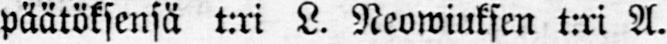päätöksensä t:ri L. Neowiuksen t:ri A.
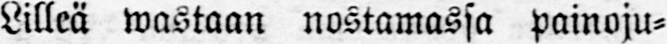Lilleä wastaan nostamassa painoju-
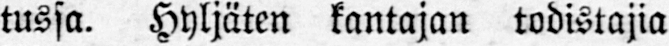tussa. Hyljäten kantajan todistajia
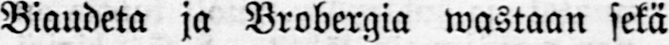Biaudeta ja Brobergia wastaan sekä
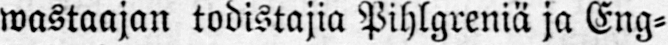wastaajan todistajia Pihlgreniä ja Eng-
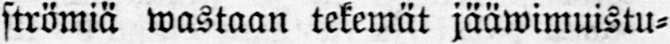strömiä wastaan tekemät jääwimuistu-
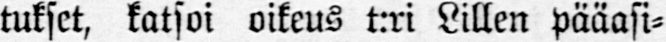tukset, katsoi oikeus t:ri Lillen pääasi-
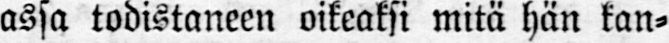assa todistaneen oikeaksi mitä hän kan-
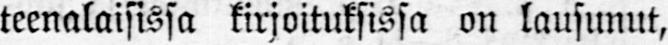teenalaisissa kirjoituksissa on lausunut,
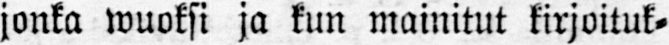jonka wuoksi ja kun mainitut kirjoituk-
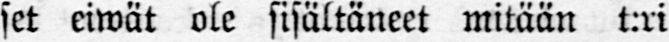set eiwät ole sisältäneet mitään t:ri
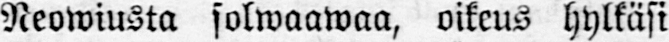Neowiusta solwaawaa, oikeus hylkäsi
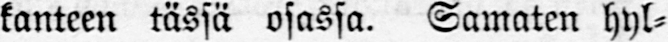kanteen tässä osassa. Samaten hyl-
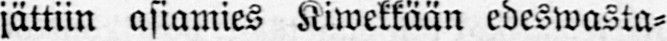jättiin asiamies Kiwekkään edeswasta-
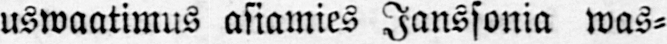uswaatimus asiamies Janssonia was-
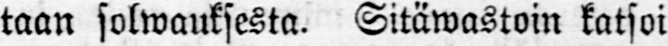taan solwauksesta. Sitäwastoin katsoi
